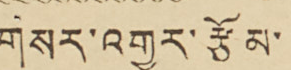གསར་འགྱུར་རྩོམ་
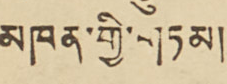མཁན་གྱི་གཏམ།
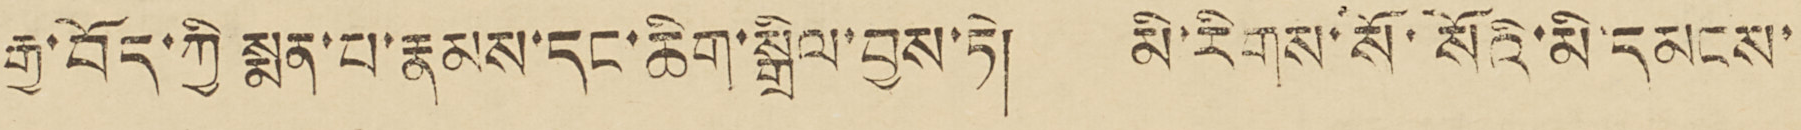རྒྱ་བོད་ཀྱི སྨན་པ་རྣམས་དང་ཆིག་སྒྲིལ་བྱས་ཏེ། མི་རིགས་སོ་སོའི་མི་དམངས་
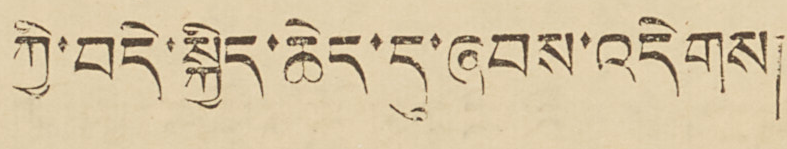ཀྱི་བདེ་སྐྱིད་ཆེད་དུ་ཞབས་འདེགས།
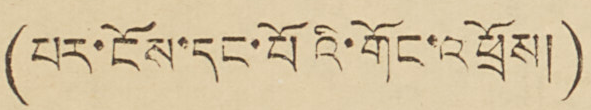(པར་ངོས་དང་པོའི་གོང་འཕྲོས།)
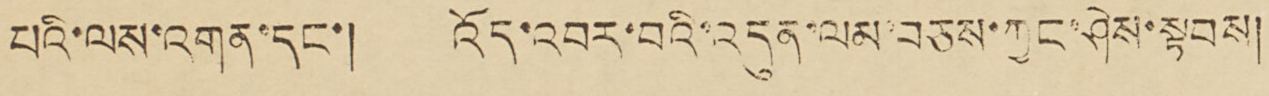པའི་ལས་འགན་དང་། འོད་འབར་བའི་འདུན་ལམ་བཅས་ཀྱང་ཤེས་སྟབས།
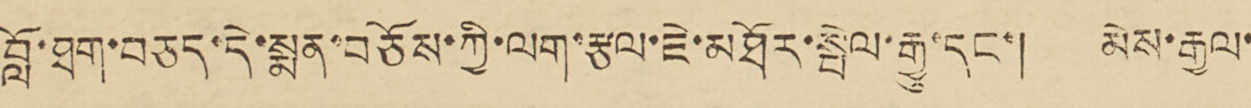བློ་ཐག་བཅད་དེ་སྨན་བཅོས་ཀྱི་ལག་རྩལ་ཇེ་མཐོར་སྤེལ་རྒྱུ་དང་། མེས་རྒྱལ་
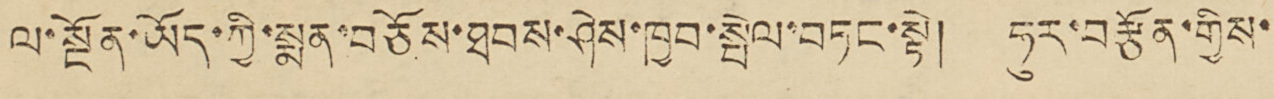ལ་སྔོན་ཡོད་ཀྱི་སྨན་བཅོས་ཐབས་ཤེས་ཁྱབ་སྤེལ་བཏང་སྟེ། ཧུར་བརྩོན་གྱིས་
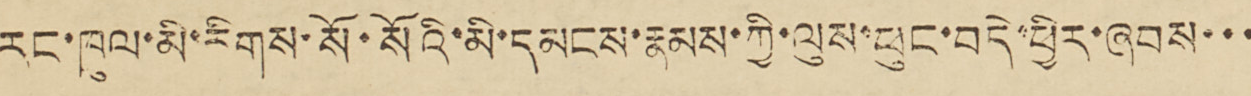རང་ཁུལ་མི་རིགས་སོ་སོའི་མི་དམངས་རྣམས་ཀྱི་ལུས་ཕུང་བདེ་ཕྱིར་ཞབས་་་
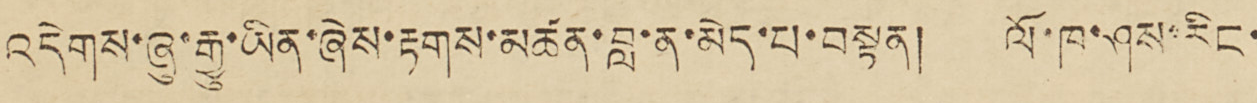འདེགས་ཞུ་རྒྱུ་ཡིན་ཞེས་རྟགས་མཚན་བླ་ན་མེད་པ་བསྟན། ལོ་ཁ་ཤས་རིང་
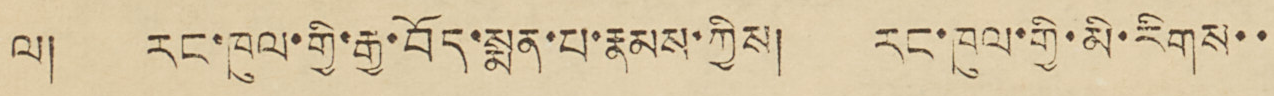ལ། རང་ཁུལ་གྱི་རྒྱ་བོད་སྨན་པ་རྣམས་ཀྱིས། རང་ཁུལ་གྱི་མི་རིགས་་
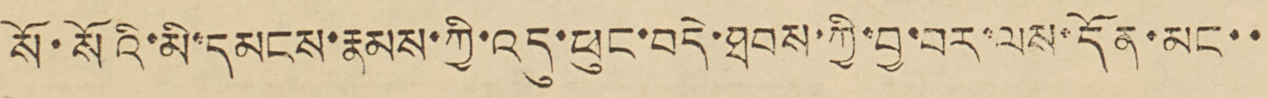སོ་སོའི་མི་དམངས་རྣམས་ཀྱི་འདུ་ཕུང་བདེ་ཐབས་ཀྱི་བྱ་བར་ལས་དོན་མང་་
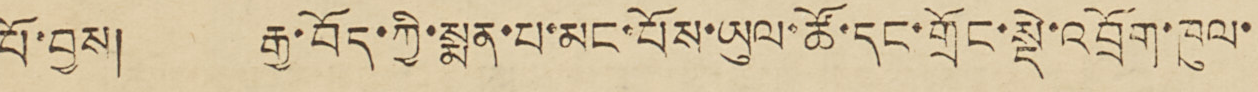པོ་བྱས། རྒྱ་བོད་ཀྱི་སྨན་པ་མང་པོས་ཡུལ་ཚོ་དང་གྲོང་སྡེ་འབྲོག་ཁུལ་
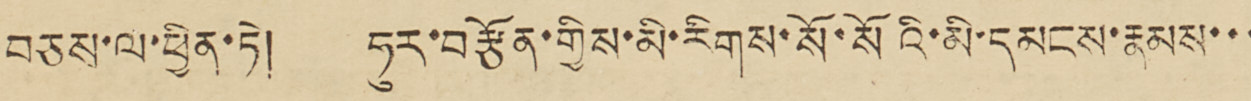བཅས་ལ་ཕྱིན་ཏེ། ཧུར་བརྩོན་གྱིས་མི་རིགས་སོ་སོའི་མི་དམངས་རྣམས་་་
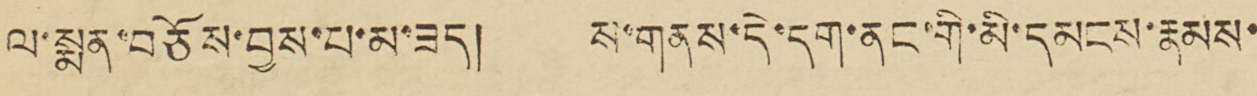ལ་སྨན་བཅོས་བྱས་པ་མ་ཟད། ས་གནས་དེ་དག་ནང་གི་མི་དམངས་རྣམས་
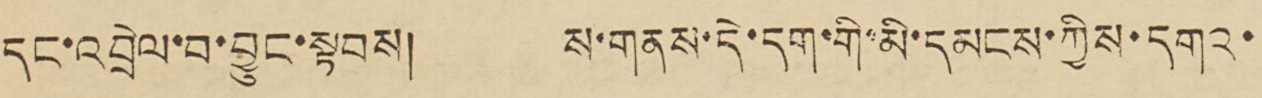དང་འབྲེལ་བ་བྱུང་སྟབས། ས་གནས་དེ་དག་གི་མི་དམངས་ཀྱིས་དགའ་
